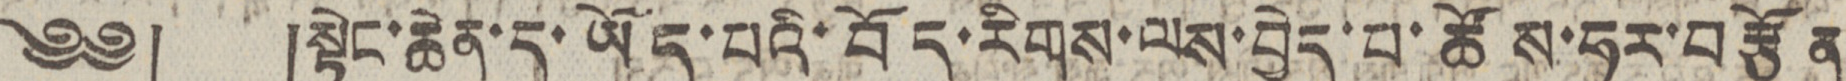༄༅། །སྟེང་ཆེན་དུ་ཡོད་པའི་བོད་རིགས་ལས་བྱེད་པ་ཚོས་ཧུར་བརྩོན་
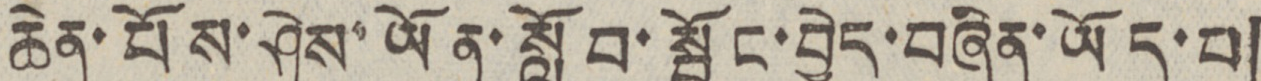ཆེན་པོས་ཤེས་ཡོན་སློབ་སྦྱོང་བྱེད་བཞིན་ཡོད་པ།
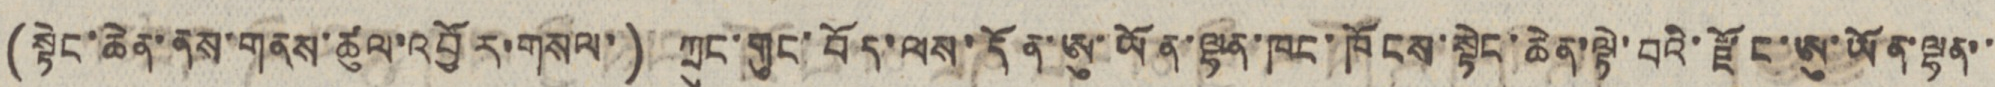(སྟེང་ཆེན་ནས་གནས་ཚུལ་འབྱོར་གསལ་) ཀྲུང་གུང་བོད་ལས་དོན་ཨུ་ཡོན་ལྷན་ཁང་ཁོངས་སྟེང་ཆེན་ལྟེ་བའི་རྫོང་ཨུ་ཡོན་ལྷན་་
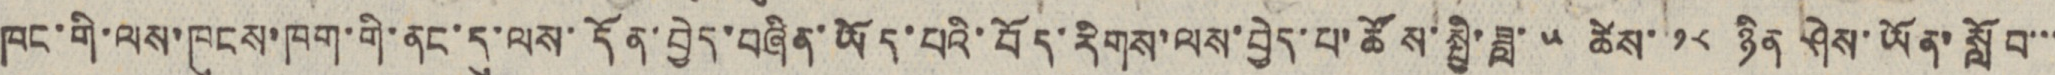ཁང་གི་ལས་ཁུངས་ཁག་གི་ནང་དུ་ལས་དོན་བྱེད་བཞིན་ཡོད་པའི་བོད་རིགས་ལས་བྱེད་པ་ཚོས་སྤྱི་ཟླ་ ༥ ཚེས་ ༡༨ ཉིན་ཤེས་ཡོན་སློབ་་་
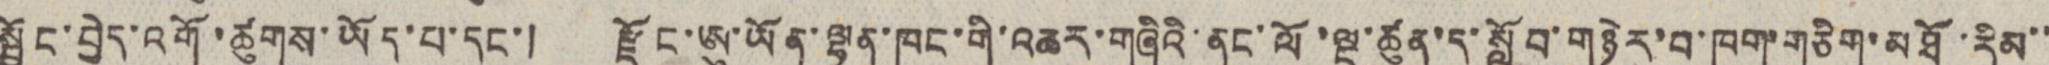སྦྱོང་བྱེད་འགོ་ཚུགས་ཡོད་པ་དང་། རྫོང་ཨུ་ཡོན་ལྷན་ཁང་གི་འཆར་གཞིའི་ནང་ལོ་ལྔ་ཚུན་དུ་སློབ་གཉེར་བ་ཁག་གཅིག་མཐོ་རིམ་་
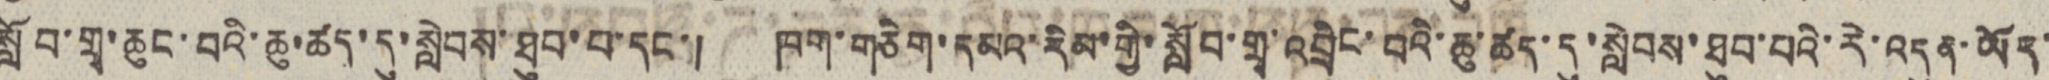སློབ་གྲྭ་ཆུང་བའི་ཆུ་ཚད་དུ་སླེབས་ཐུབ་པ་དང་། ཁག་གཅིག་དམའ་རིམ་གྱི་སློབ་གྲྭ་འབྲེང་བའི་ཆུ་ཚད་དུ་སླེབས་ཐུབ་པའི་རེ་འདུན་ཡོད་
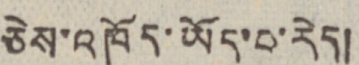ཅེས་འཁོད་ཡོད་པ་རེད།
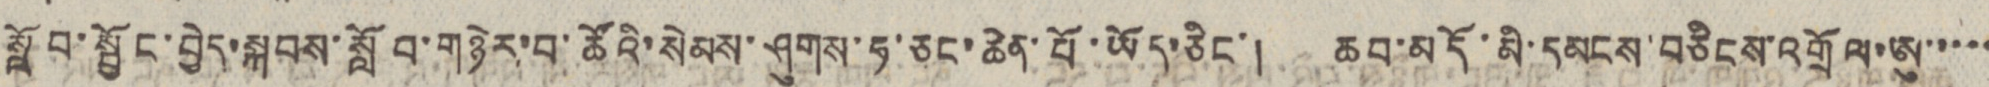སློབ་སྦྱོང་བྱེད་སྐབས་སློབ་གཉེར་བ་ཚོའི་སེམས་ཤུགས་ཧ་ཅང་ཆེན་པོ་ཡོད་ཅིང་། ཆབ་མདོ་མི་དམངས་བཅིངས་འགྲོལ་ཨུ་་་་་
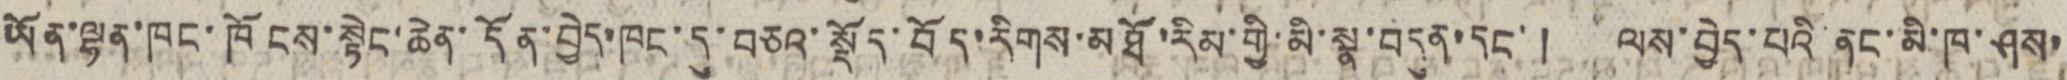ཡོན་ལྷན་ཁང་ཁོངས་སྟེང་ཆེན་དོན་བྱེད་ཁང་དུ་བཅའ་སྡོད་བོད་རིགས་མཐོ་རིམ་གྱི་མི་སྣ་བདུན་དང་། ལས་བྱེད་པའི་ནང་མི་ཁ་ཤས་
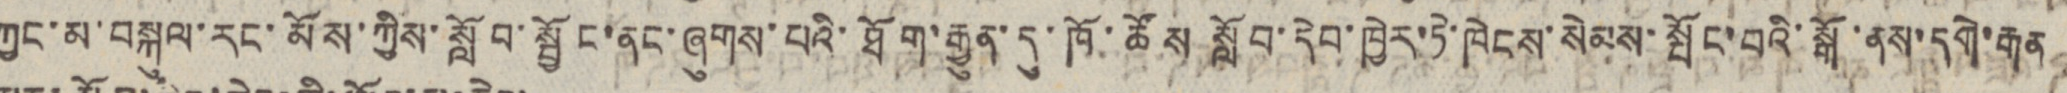ཀྱང་མ་བསྐུལ་རང་མོས་ཀྱིས་སློབ་སྦྱོང་ནང་ཞུགས་པའི་ཐོག་རྒྱུན་དུ་ཁོ་ཚོས སློབ་དེབ་ཁྱེར་ཏེ་ཁེངས་སེམས་སྤོང་བའི་སྒོ་ནས་དགེ་རྒན
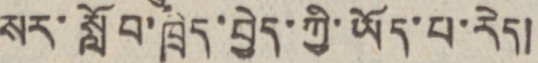སར་སློབ་ཁྲིད་བྱེད་ཀྱི་ཡོད་པ་རེད།
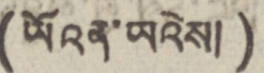(ཡོའན་ཡའེས།)
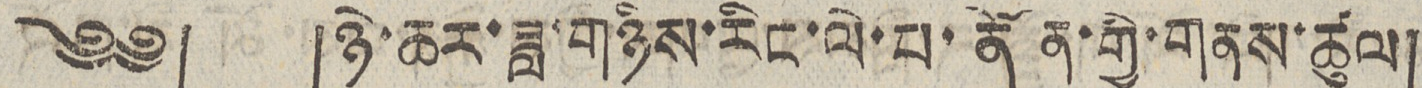༄༅། །ཉེ་ཆར་ཟླ་གཉིས་རིང་ལེ་པ་ནོན་གྱི་གནས་ཚུལ།
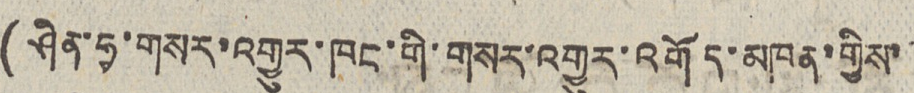(ཤིན་ཧྭ་གསར་འགྱུར་ཁང་གི་གསར་འགྱུར་འགོད་མཁན་གྱིས་
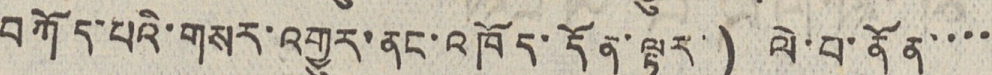བཀོད་པའི་གསར་འགྱུར་ནང་འཁོད་དོན་ལྟར་) ལེ་པ་ནོན་་་་
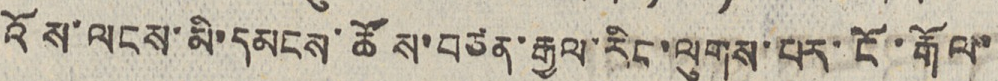འོས་ལངས་མི་དམངས་ཚོས་བཙན་རྒྱལ་རིང་ལུགས་པར་ངོ་རྒོལ་
